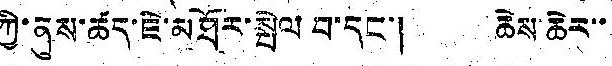ཀྱི་ནུས་ཚད་ཇེ་མཐོར་སྤེལ བ་དང་། ཆེས་ཆེར་་
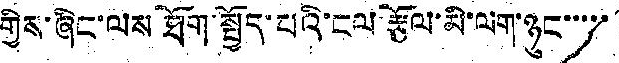གྱིས་ཞིང་ལས ཐོག་སྤྱོད་པའི་ངལ་རྩོལ་མི་ལག་ཉུང་་་་་
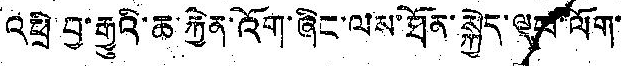འཕྲི བྱ་རྒྱུའི་ཆ་རྐྱེན་འོག་ཞིང་ལས་ཐོན་སྐྱེད་ལྡབ་ལོག་
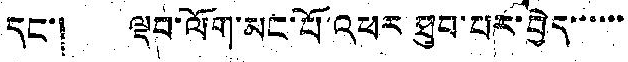དང་། ལྡབ་ལོག་མང་པོ་འཕར ཐུབ་པར་བྱེད་་་་་་
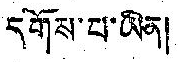དགོས་པ་ཡིན།
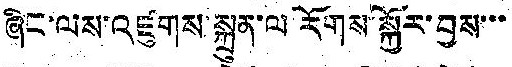ཞིང་ལས་འཛུགས་སྐྲུན་ལ རོགས་སྐྱོར་བྱས་་་
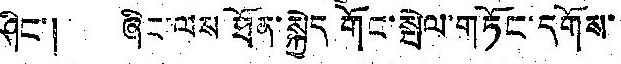ཤིང་། ཞིང་ལས ཐོན་སྐྱེད གོང་སྤེལ་གཏོང་དགོས་
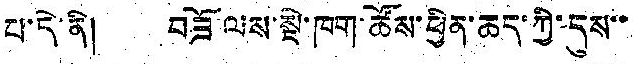པ་དེ་ནི། བཟོ་ལས་སྡེ་ཁག་ཚོས་ཕྱིན་ཆད་ཀྱི་དུས་་
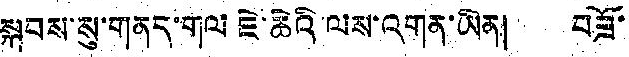སྐབས་སུ་གནད་གལ ཇེ་ཆེའི་ལས་འགན་ཡིན། བཟོ་
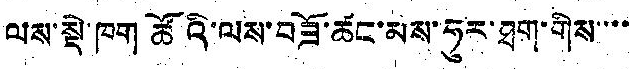ལས་སྡེ་ཁག ཚོའི་ལས་བཟོ་ཚང་མས་ཧུར་ཐག་གིས་་་་
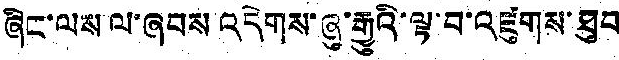ཞིང་ལས་ལ་ཞབས འདེགས་ཞུ་རྒྱུའི་ལྟ་བ་འཛུགས་ཐུབ
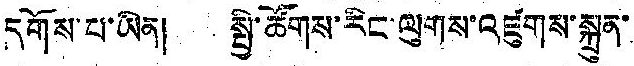དགོས་པ་ཡིན། སྤྱི་ཚོགས་རིང་ལུགས་འཛུགས་སྐྲུན་
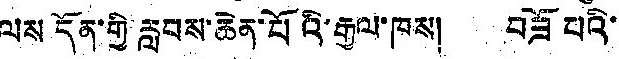ལས དོན་གྱི་རླབས་ཆེན་པོའི་རྒྱལ་ཁས། བཟོ པའི་
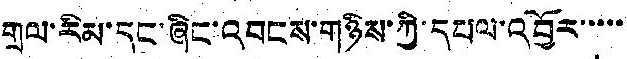གྲལ་རིམ་དང་ཞིང་འབངས་གཉིས་ཀྱི་དཔལ་འབྱོར་་་་་
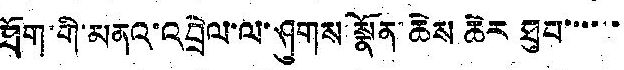ཐོག་གི་མནའ་འབྲེལ་ལ་ཤུགས་སྣོན་ཆེས ཆེར ཐུབ་་་་་་
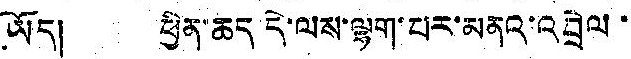ཡོད། ཕྱིན་ཆད དེ་ལས་ལྷག་པར་མནའ་འབྲེལ་
